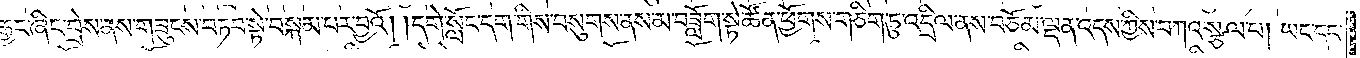རྒྱང་ཞིང་བྲེས་ནས་གཟུངས་བཏབ་སྟེ་བསྐམ་པར་བྱའོ། །དགེ་སློང་དག་གིས་བསུགས་ནས་མ་བཟློག་སྟེ་ཚོན་ཕྱོགས་གཅིག་ཏུ་འདྲིལ་ནས་བཅོམ་ལྡན་འདས་ཀྱིས་བཀའ་སྩལ་པ། ཡང་དང་
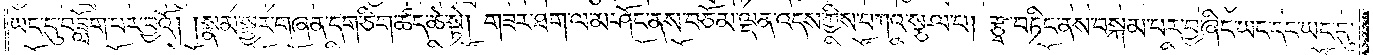ཡང་དུ་བཟློག་པར་བྱའོ། །སྣམ་སྦྱར་གཞན་དག་ཅིག་ཚད་ཆེ་སྟེ། གཟར་ཐག་ལ་མ་ཤོང་ནས་བཅོམ་ལྡན་འདས་ཀྱིས་བཀའ་སྩལ་པ། རྩྭ་བཏིང་ནས་བསྐམ་པར་བྱ་ཞིང་ཡང་དང་ཡང་དུ་
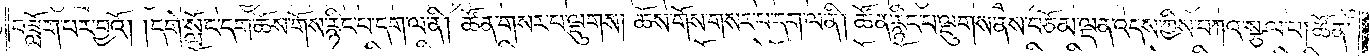བཟློག་པར་བྱའོ། །དགེ་སློང་དག་ཆོས་གོས་རྙིང་པ་དག་ལ་ནི། ཚོན་གསར་པ་ལྡུགས། ཆོས་གོས་གསར་པ་དག་ལ་ནི། ཚོན་རྙིང་པ་ལྡུགས་ནས་བཅོམ་ལྡན་འདས་ཀྱིས་བཀའ་སྩལ་པ། ཚོན་
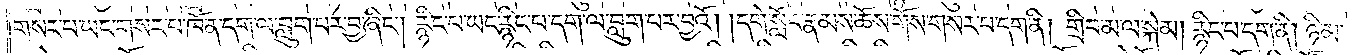གསར་པ་ཡང་གསར་པ་ཁོ་ན་དག་ལ་བླུག་པར་བྱ་ཞིང༌། རྙིང་པ་ཡང་རྙིང་པ་དག་ལ་བླུག་པར་བྱའོ། །དགེ་སློང་རྣམས་ཆོས་གོས་གསར་པ་དག་ནི། གྲིབ་མ་ལ་སྐེམ། རྙིང་པ་དག་ནི། ཉི་མ་
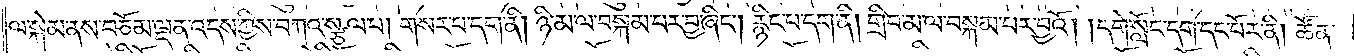ལ་སྐེམ་ནས་བཅོམ་ལྡན་འདས་ཀྱིས་བཀའ་སྩལ་པ། གསར་པ་དག་ནི། ཉི་མ་ལ་བསྐམ་པར་བྱ་ཞིང༌། རྙིང་པ་དག་ནི། གྲིབ་མ་ལ་བསྐམ་པར་བྱའོ། །དགེ་སློང་དག་དང་པོར་ནི། ཚོན་
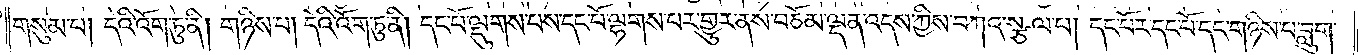གསུམ་པ། དེའི་འོག་ཏུ་ནི། གཉིས་པ། དེའི་འོག་ཏུ་ནི། དང་པོ་ལྡུགས་པས་དང་པོ་ལྷགས་པར་གྱུར་ནས་བཅོམ་ལྡན་འདས་ཀྱིས་བཀའ་སྩལ་པ། དང་པོར་དང་པོ་དང་གཉིས་པ་བླུག་
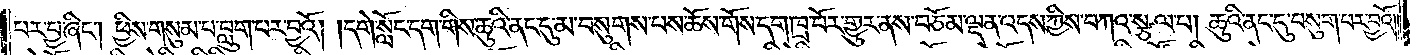པར་བྱ་ཞིང༌། ཕྱིས་གསུམ་པ་བླུག་པར་བྱའོ། །དགེ་སློང་དག་གིས་ཆུའི་ནང་དུ་མ་བསུགས་པས་ཆོས་གོས་དག་ཁྲ་བོར་གྱུར་ནས་བཅོམ་ལྡན་འདས་ཀྱིས་བཀའ་སྩལ་པ། ཆུའི་ནང་དུ་བསུག་པར་བྱའོ།
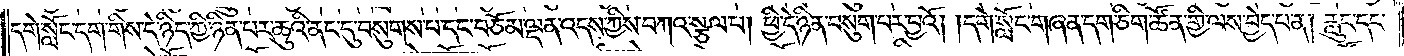དགེ་སློང་དག་གིས་དེ་ཉིད་ཀྱི་ཉིན་པར་ཆུའི་ནང་དུ་བསུགས་པ་དང་བཅོམ་ལྡན་འདས་ཀྱིས་བཀའ་སྩལ་པ། ཕྱི་དེ་ཉིན་བསུག་པར་བྱའོ། །དགེ་སློང་གཞན་དག་ཅིག་ཚོན་གྱི་ལས་བྱེད་པ་ན། རླུང་དང་
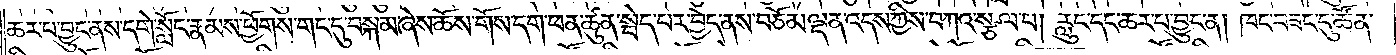ཆར་པ་བྱུང་ནས་དགེ་སློང་རྣམས་ཕྱོགས་གང་དུ་བསྐམ་ཞེས་ཆོས་གོས་དག་ཕན་ཚུན་སྦེད་པར་བྱེད་ནས་བཅོམ་ལྡན་འདས་ཀྱིས་བཀའ་སྩལ་པ། རླུང་དང་ཆར་པ་བྱུང་ན། ཁང་བཟང་དུ་ཚོན་
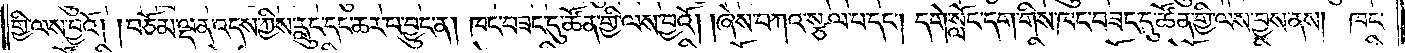གྱི་ལས་བྱའོ། །བཅོམ་ལྡན་འདས་ཀྱིས་རླུང་དང་ཆར་པ་བྱུང་ན། ཁང་བཟང་དུ་ཚོན་གྱི་ལས་བྱའོ། །ཞེས་བཀའ་སྩལ་པ་དང༌། དགེ་སློང་དག་གིས་ཁང་བཟང་དུ་ཚོན་གྱི་ལས་བྱས་ནས། ཁང་
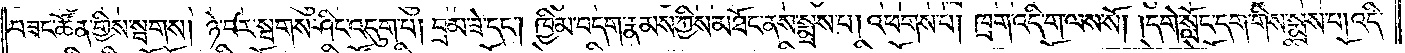བཟང་ཚོན་གྱིས་སྦགས། ཉེ་བར་སྦགས་ཤིང་འདུག་པ། བྲམ་ཟེ་དང༌། ཁྱིམ་བདག་རྣམས་ཀྱིས་མཐོང་ནས་སྨྲས་པ། འཕགས་པ། ཁྲག་འདི་ག་ལས་སོ། །དགེ་སློང་དག་གིས་སྨྲས་པ། འདི་
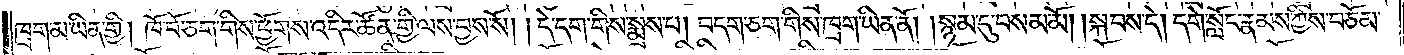ཁྲག་མ་ཡིན་གྱི། ཁོ་བོ་ཅག་གིས་ཕྱོགས་འདིར་ཚོན་གྱི་ལས་བྱས་སོ། །དེ་དག་གིས་སྨྲས་པ། བདག་ཅག་གིས་ཁྲག་ཡིན་ནོ། །སྙམ་དུ་བསམ་མོ། །སྐབས་དེ། དགེ་སློང་རྣམས་ཀྱིས་བཅོམ་
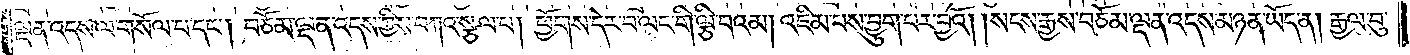ལྡན་འདས་ལ་གསོལ་པ་དང༌། བཅོམ་ལྡན་འདས་ཀྱིས་བཀའ་སྩལ་པ། ཕྱོགས་དེར་བ་ལང་གི་ལྕི་བའམ། འཇིམ་པས་བྱུག་པར་བྱའོ། །སངས་རྒྱས་བཅོམ་ལྡན་འདས་མཉན་ཡོད་ན། རྒྱལ་བུ་
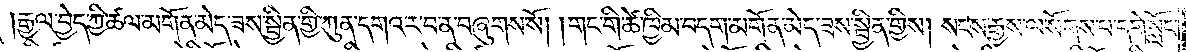རྒྱལ་བྱེད་ཀྱི་ཚལ་མགོན་མེད་ཟས་སྦྱིན་གྱི་ཀུན་དགའ་ར་བ་ན་བཞུགས་སོ། །གང་གི་ཚེ་ཁྱིམ་བདག་མགོན་མེད་ཟས་སྦྱིན་གྱིས། སངས་རྒྱས་ལ་སོགས་པ་དགེ་སློང་
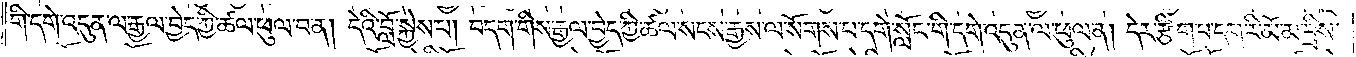གི་དགེ་འདུན་ལ་རྒྱལ་བྱེད་ཀྱི་ཚལ་ཕུལ་བ་ན། དེའི་བློ་སྐྱེས་པ། བདག་གིས་རྒྱལ་བྱེད་ཀྱི་ཚལ་སངས་རྒྱས་ལ་སོགས་པ་དགེ་སློང་གི་དགེ་འདུན་ལ་ཕུལ་ན། དེར་རྩིག་པ་དག་རི་མོ་མ་བྲིས་
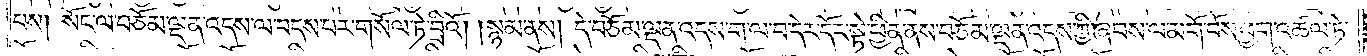པས། སོང་ལ་བཅོམ་ལྡན་འདས་ལ་བདས་པར་གསོལ་ཏེ་བྲིའོ། །སྙམ་ནས། དེ་བཅོམ་ལྡན་འདས་ག་ལ་བ་དེར་དོང་སྟེ་ཕྱིན་ནས་བཅོམ་ལྡན་འདས་ཀྱི་ཞབས་ལ་མགོ་བོས་ཕྱག་འཚལ་ཏེ་
